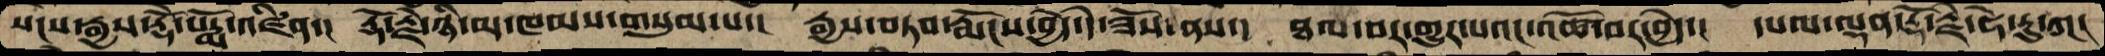སངས་རྒྱས་རྡོ་རྗེ་པདྨོ་འཛིན་།  རྡོ་རྗེ་ཉི་མ་ཁམས་གསུམ་པ་།  རྒྱས་བཏབ་རྨོངས་བྱེད་དེ་ཟོས་ནས་།  ཐལ་བར་གྱུར་པའང་འཚོ་བར་བྱེད་།  དཔལ་ལྡན་རྡོ་རྗེ་ཧེ་རུ་ཀ།
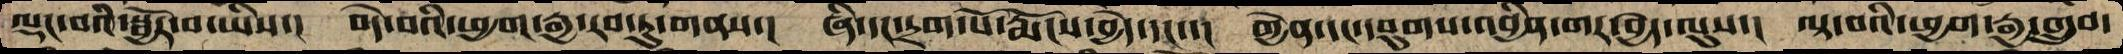ལྡང་བའི་སྦྱོར་བ་ཡིས་།  བདེ་བའི་ཕྱག་རྒྱ་རབ་ཏུ་གནས་།  ཞི་དང་དྲག་པོ་རྨོངས་བྱེད་དང་་།  གྱེན་དང་དབུགས་འབྱིན་གར་བྱེད་ལུས་།  ལྟ་བའི་ཕྱག་རྒྱ་གྲུབ་
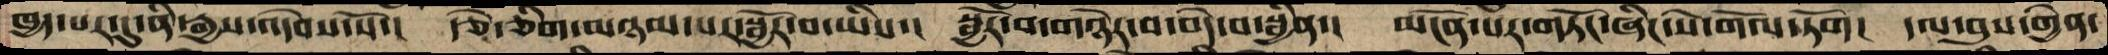ཁྱད་པར་དུ་ནི་རྒྱས་འདེབས་སོ་།  རྩེ་ཅིག་མཉམ་པར་སྦྱོར་བ་ཡིས་།  སྦྱོར་བ་གཉེར་བ་བེད་བ་སྦྱིན་།  མངོན་པར་གཏོང་ཞིང་སེ་གོལ་ཏོག།  དལ་བུས་གྱེན་
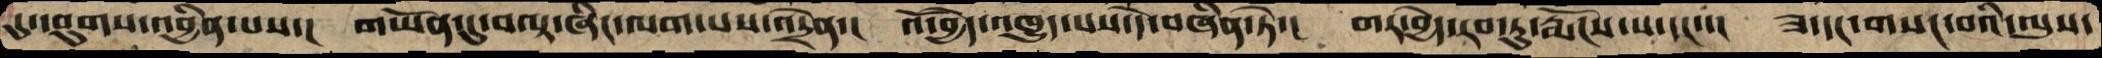དུ་དབུགས་འབྱིན་པས་།  གཡོན་དུ་བལྟ་ཞིང་ལག་པས་འདྲེན་།  འོ་བྱེད་འཁྱུད་པས་དེ་བཞིན་ཏེ་།  གར་བྱེད་རབ་ཏུ་རྨོངས་པ་དང་་།  ཟ་དང་གསང་བའི་ལུས་
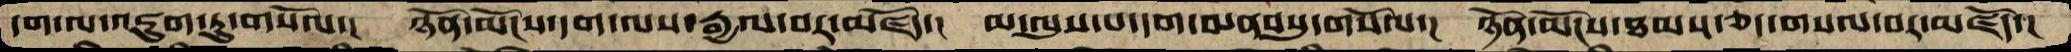དག་ལ་འཇུག་ཏུ་གསོལ་།  ཉོན་མོངས་དག་ལས་རྒྱལ་བར་མཛོད་།  མ་ལུས་པ་དག་མནབསུ་གསོལ་།  ཉོན་མོངས་ཐམས་ཅད་གསལ་བར་མཛོད་།
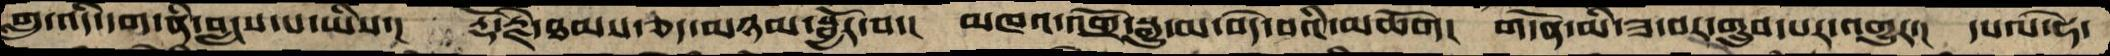གླུ་འདི་དག་ནི་བླངས་པ་ཡིས་།   རྡོ་རྗེ་ཐམས་ཅད་མཉམ་སྦྱོར་བ་།  མཁའ་འགྲོ་སྒྱུ་མ་བདེ་བའི་མཆོག།  གདོན་མི་ཟ་བར་གྲུབ་པར་འགྱུར་།  དཔལ་ཧེ་
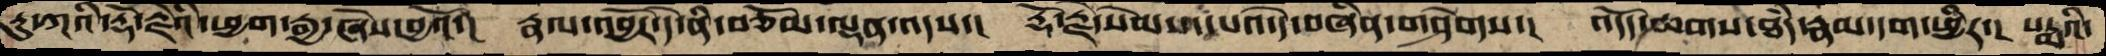རུ་ཀའི་རྡོ་རྗེའི་ཕྱག་རྒྱ་ཞེས་བྱའོ་།  རྣལ་འབྱོར་དེ་ནི་བཅོམ་ལྡན་འདས་།  རྡོ་རྗེ་སེམས་དཔའ་དེ་བཞིན་གཤེགས་།  འདོད་ཆགས་ཐདཾ་རྣམ་དག་ཕྱིར་།  པདྨའི་
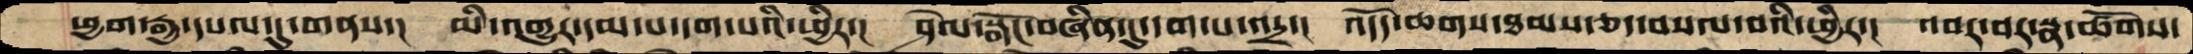ཕྱག་རྒྱ་དཔལ་དུ་གནས་།  མི་འགྱུར་དམ་པ་དག་པའི་ཕྱིར་།  ཤེལ་སྒོང་བཞིན་དུ་དག་པ་འདྲ་།  འདོད་ཆགས་ཐམས་ཅད་བསལ་བའི་ཕྱིར་།  འབར་བར་སྣ་ཚོགས་
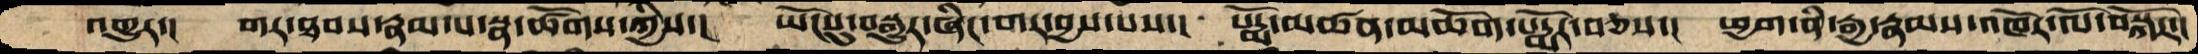འགྱུར་།  གར་ཐབས་རྣམ་པ་སྣ་ཚོགས་ཀྱིས་།  ཡོངསུ་བསྒྱུར་ཞིང་གར་བྱས་པས་།  པདྨོ་མཚན་མཆོག་པདྨོར་བཅས་།  ཕྱག་ནི་རྒྱ་རྣམས་འཁོར་ལོ་བསྐོར་།
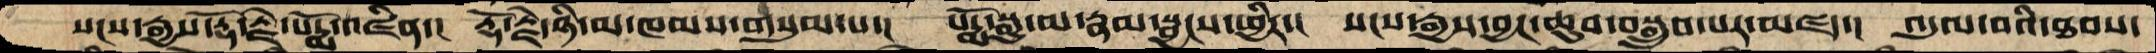སངས་རྒྱས་རྡོ་རྗེ་པདྨོ་འཛིན་།  རྡོ་རྗེ་ཉི་མ་ཁམས་གསུམ་པ་།  པདྨོ་སྒྱུ་མ་རྣམ་སྦྱངས་ཕྱིར་།  སངས་རྒྱས་བྱང་ཆུབ་བསྒྲུབ་པར་མཛད་།  འདུལ་བའི་ཐབས་
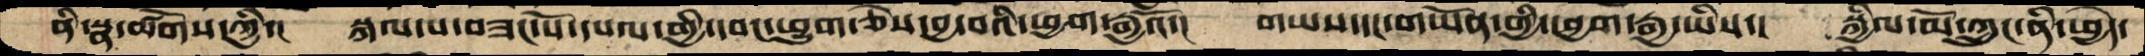ནི་སྣ་ཚོགས་ཀྱི་།  སྐལ་པ་བཟང་པོ་དཔལ་གྱི་དབང་ཕྱུག་ཅེས་བྱ་བའི་ཕྱག་རྒྱའོ་།  གཡས་དང་གཡོན་གྱི་ཕྱག་རྒྱ་ཡིས་།  སྐྱིལ་མོ་ཀྲུང་ནི་ཕྱེད་
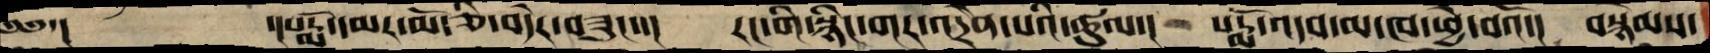༄༅་།          ་།པདྨོ་དམར་མོ་ཅི་བདེར་བཟུང་་།   རང་གི་སྙིང་གར་འདྲེན་པའི་ཚུལ་།  པདྨོ་འདབ་མ་ཁ་ཕྱེ་བའོ་།   བསྙེམས་
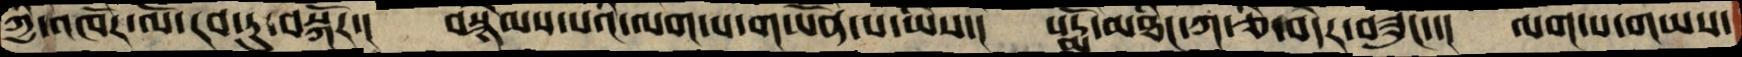ཀྱི་འཁོར་ལོ་རབ་ཏུ་བསྐོར་།   བསྙེམས་པའི་ལག་པ་གཡོན་པ་ཡིས་།  པདྨོ་མཐིང་ཀ་ཅི་བདེར་བཟུང་་།  ལག་པ་གཡས་
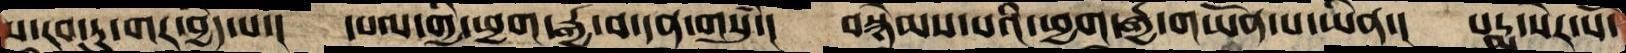ས་རབ་ཏུ་གར་བྱེད་པ་།  དཔལ་གྱི་ཕྱག་རྒྱ་བ་དན་གསུཾ་།  བསྙེམས་པའི་ཕྱག་རྒྱ་གཡོན་པ་ཡིན་།  པདྨ་སེར་པོ་
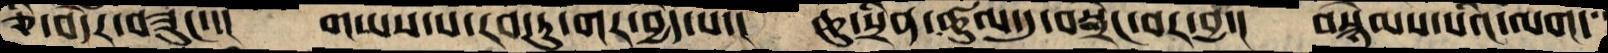ཅི་བདེར་བཟུང་་།  གཡས་པ་རབ་ཏུ་གར་བྱེད་པ་།  ཆུ་སྲིན་ཚུལ་དུ་བསྒྲེང་བར་བྱེད་།  བསྙེམས་པའི་ལག་
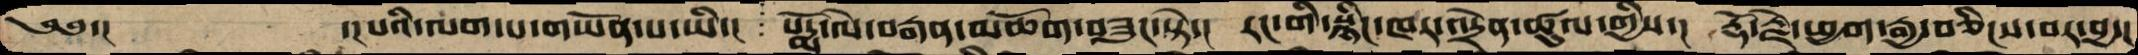༄༅་།           ་།པའི་ལག་པ་གཡོན་པ་ཡི་།  པདྨོ་ལེ་བརྒན་མཆོག་བཟུང་སྟེ་།  རང་གི་སྙིང་ཁར་འདྲེན་ཚུལ་གྱིས་།  རྡོ་རྗེ་ཕྱག་རྒྱ་བཅིངས་བར་བྱ་།
